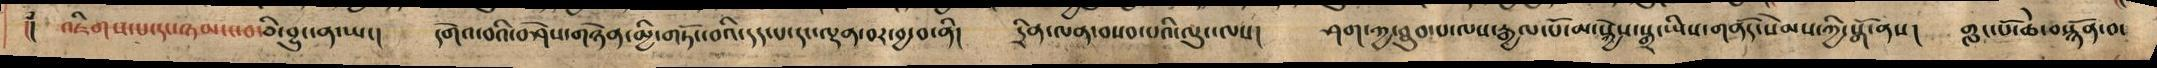།། འཇིགས་པ་དང་ཉམ་ང་བ་ཅི་བྱུང་ན་ཡང། དགེའ་བའི་བཤེས་གཉེན་མྱི་གཏོང་བའི་དད་པ་དང་ལྡན་བར་བྱ་བ་ནི། དྲིན་ལན་བསབ་པའི་ལུང་ལས། ཤག་ཀྱ་ཐུབ་པ་ལས་རྒྱལ་པོ་མ་སྐྱེས་སྒྲ་ཡིས་གནོད་སེམས་ཀྱི་སྒོ་ནས། གླང་པོ་ཆེ་བསྙོན་བ་
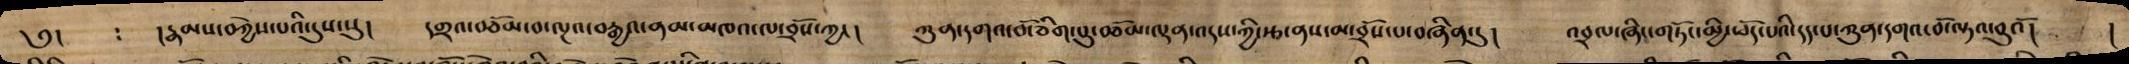༅། : །རྣམས་བཀྱེས་པའི་དུས་སུ། དགྲའ་བཅོམ་བ་ལྔ་བརྒྱའ་ནམ་མཁའ་ལ་བྲོས་ཀྱང། ཀུན་དགའ་བོ་ཅིག་པུ་བཅོམ་ལྡན་འདས་ཀྱི་རྩ་ནས་མ་བྲོས་པ་བཞིན་དུ། འབྲལ་ཞིང་གཏོང་མྱི་ཕོད་པའི་དད་པ་ཀུན་དགའ་བོ་ལྟའ་བུའོ། །
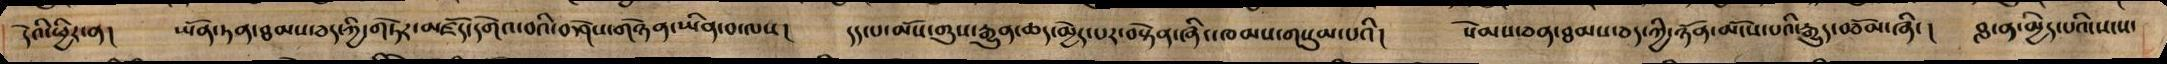དེའི་ཕྱིར་ན། ཡོན་ཏན་ཐམས་ཅད་ཀྱི་གཏེར་མཛོད་དགེའ་བའི་བཤེས་གཉེན་ཡིན་བ་ལས། དད་པ་མོས་གུས་རྒྱུན་ཆད་མྱེད་པར་བསྟེན་ཞིང་ཁམས་གསུམ་པའི། སེམས་ཅན་ཐམས་ཅད་ཀྱི་ཉོན་མོངས་པའི་རྒྱུད་བཅོམ་ཞིང། བླ་ན་མྱིད་པའི་སངས་
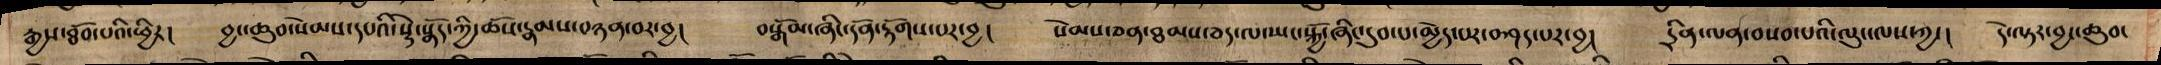རྒྱས་ཐོབ་པའི་ཕྱིར། བྱང་ཆུབ་སེམས་དཔའི་སྡེ་སྣོད་ཀྱི་ཆོས་རྣམས་བཉན་བར་བྱ། བསྒོམ་ཞིང་དོན་རྟོགས་པར་བྱ། སེམས་ཅན་ཐམས་ཅད་ལ་ཡང་སྐྱོ་ཞིང་དུབ་པ་མྱེད་པར་བཤད་པར་བྱ། དྲིན་ལན་བསབ་པའི་ལུང་ལས་ཀྱང། དེ་ལྟར་བྱང་ཆུབ་
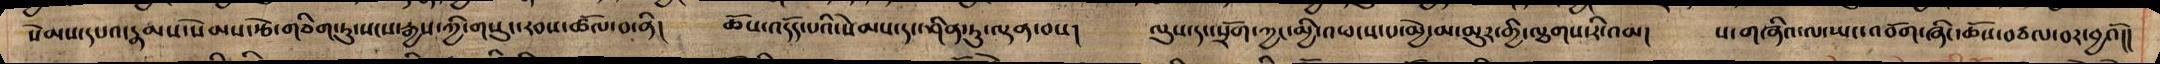སེམས་དཔའ་རྣམས་སེམས་རྩེ་གཅིག་ཏུ་སངས་རྒྱས་ཀྱི་གསུང་རབས་ཚོལ་བ་ནི། ཆོས་འདོད་པའི་སེམས་དང་ཤིན་ཏུ་ལྡན་བས། ལུས་དང་སྲོག་ཀྱང་མྱི་འཕངས་པ་མྱེ་མ་མུར་གྱི་ལྕགས་རི་འམ། ས་གཞིའ་ལ་ཡང་འབོག་ཞཱིང་ཆོས་བཙལ་བར་བྱའོ།།
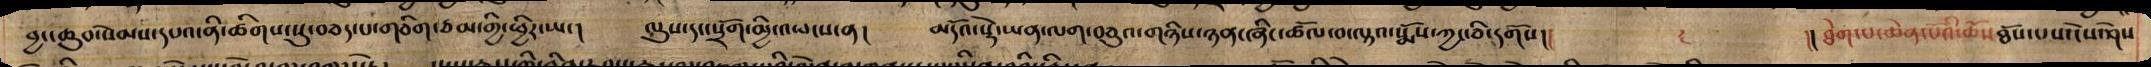བྱང་ཆུབ་སེམས་དཔའ་ནི་ཚིགས་སུ་བཅད་པ་གཅིག་ཙམ་གྱི་ཕྱིར་ཡང། ལུས་དང་སྲོག་མྱི་འཕངས་ན། མདོའ་སྡེ་ཡན་ལག་བཅུའ་གཉིས་ཉན་ཞིང་ཚོལ་བ་ལྟའ་སྨོས་ཀྱང་ཅི་དགོས།། །། ཐེག་པ་ཆེན་པོའི་ཆོས་ཐོས་པས་ངོས་ཤེས
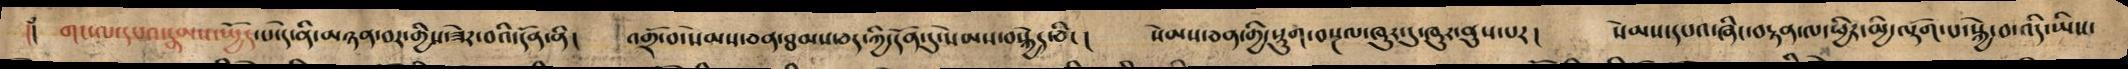།། གང་ལ་དཔའ་རྣམས་སྤྱོད་པ་དེ་ནི་མཉན་བར་གྱིས་ཟེར་བའི་དོན་ནི། འགྲོ་བ་སེམས་ཅན་ཐམས་ཅད་ཀྱི་དོན་དུ་སེམས་བསྐྱེད་ཅིང། སེམས་ཅན་གྱི་སྡུག་བསྔལ་ཞུར་དུ་ཞུར་ནུས་པར། སེམས་དཔའ་ཞིང་བརྟན་ལ་ཕྱིར་མྱི་ལྡོག་པ་སྐྱེ་བ་འདི་ཡིས་
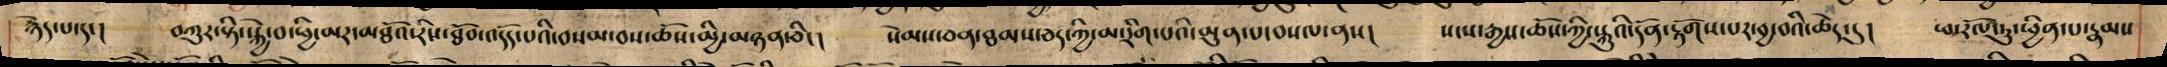རྙེད་པ་དང། བཀུར་སྟི་སྐྱེ་བ་ཕྱི་མར་མཐོའ་རིས་ཐོབ་འདོད་པའི་བསམ་བས་ཆོས་མྱི་མཉན་ཅིང། སེམས་ཅན་ཐམས་ཅད་ཀྱི་མ་རིག་པའི་མུན་པ་བསལ་ནས། སངས་རྒྱས་ཆོས་ཀྱི་སྐུའི་དོན་རྟོགས་པར་བྱ་བའི་ཆེད་དུ། ཕ་རོལ་ཏུ་ཕྱིན་པ་རྣམས
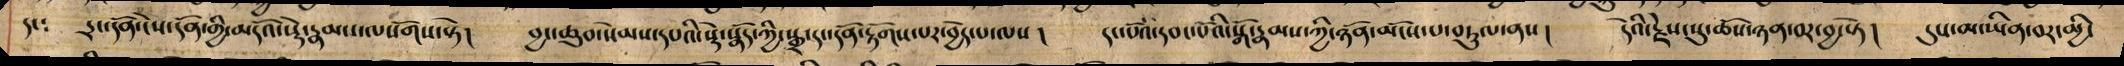དང་ དྲང་དོན་ངེས་དོན་གྱི་མདོའ་སྡེ་རྣམས་ལསོགས་སྟེ། བྱང་ཆུབ་སེམས་དཔའི་སྡེ་སྣོད་ཀྱི་སྒྲ་དོན་རྟོགས་པར་བྱེད་པ་ལས། དང་པོའ་དབང་པོའི་སྒོ་རྣམས་ཀྱི་ཉོན་མོངས་པ་བཏུལ་ནས། དེའི་རྗེས་སུ་ཆོས་ཉན་བར་བྱ་སྟེ། དུས་མ་ཡིན་བར་མྱི་
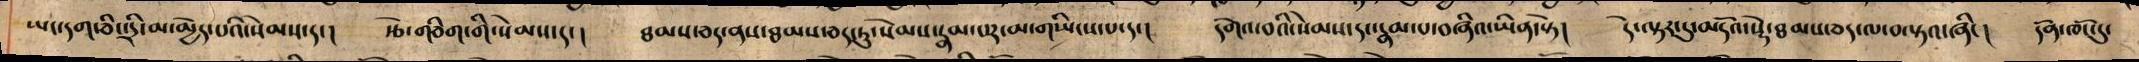ཡང་དག་ཅིང་དྲི་མ་མྱེད་པའི་སེམས་དང། རྩེ་གཅིག་གི་སེམས་དང། ཐམས་ཅད་ནས་ཐམས་ཅད་ཏུ་སེམས་རྣམ་པར་མ་གཡིངས་པ་དང། དགེའ་བའི་སེམས་དང་རྣམ་པ་བཞིའ་ཡིན་སྟེ། དེ་ལྟར་དུ་མདོའ་སྡེ་ཐམས་ཅད་ལ་བལྟའ་ཞིང། དོན་ཁོང་དུ་
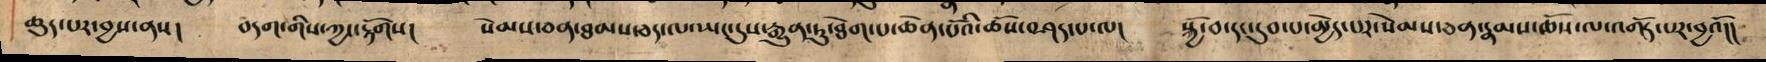ཆུད་པར་བྱས་ནས། བདག་གིས་ཀྱང་རྟོགས། སེམས་ཅན་ཐམས་ཅད་ལ་ཡང་དུས་རྒྱུན་ཏུ་ཐེག་པ་ཆེན་པོའི་ཆོས་བཤད་པ་ལ། སྐྱོ་བ་དང་དུབ་པ་མྱེད་པར་སེམས་ཅན་རྣམས་ཆོས་ལ་འགོད་པར་བྱའོ།།
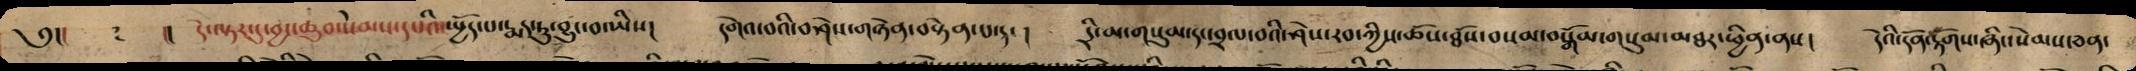༅།། །། དེ་ལྟར་དུ་བྱང་ཆུབ་སེམས་དཔའི་སྤྱོད་པ་རྨད་ཏུ་བྱུང་བ་ཡིས། དགེའ་བའི་བཤེས་གཉེན་བསྟེན་པ་དང ། དྲི་མ་གསུམ་དང་བྲལ་བའི་ཤེས་རབ་ཀྱིས་ཆོས་ཐོས་བསམ་བསྒོམ་གསུམ་མཐར་ཕྱིན་ནས། དེའི་དོན་རྟོགས་ཞིང་སེམས་ཅན་
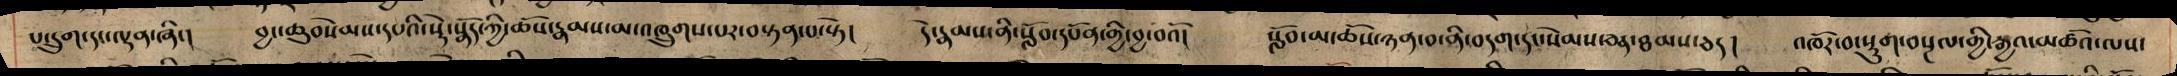པ་དྲུག་དང་ལྡན་ཞིང། བྱང་ཆུབ་སེམས་དཔའི་སྡེ་སྣོད་ཀྱི་ཆོས་རྣམས་མ་འཁྲུགས་པར་བསྟན་པ་སྟེ། དེ་རྣམས་ནི་སློབ་དཔོན་གྱི་བྱ་བའོ། སློབ་མ་ཆོས་ཉན་བ་ནི་བདག་དང་སེམས་ཅན་ཐམས་ཅད། འཁཽར་བ་སྡུག་བསྔལ་གྱི་རྒྱའ་མཚོའ་ལས་
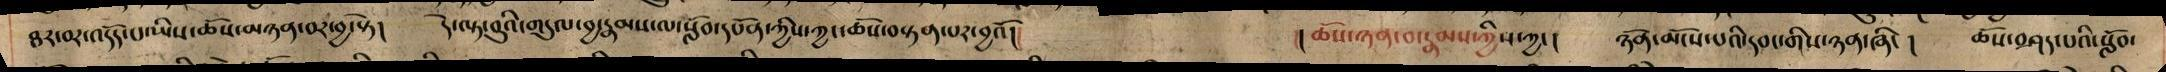ཐར་བར་འདོད་པ་ཡིས་ཆོས་མཉན་བར་བྱ་སྟེ། དེ་ལྟ་བུའི་གདུལ་བྱ་རྣམས་ལ་སློབ་དཔོན་ཀྱིས་ཀྱང་ཆོས་བསྟན་པར་བྱའོ།། །།ཆོས་ཉན་བ་རྣམས་ཀྱིས་ཀྱང། ཉོན་མོངས་པའི་དབང་གིས་ཉན་ཞིང ། ཆོས་བཤད་པའི་སློབ་
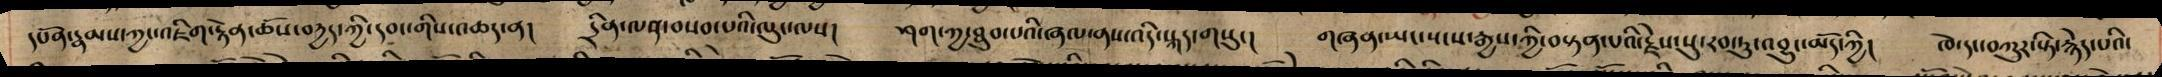དཔོན་རྣམས་ཀྱང་འཇིག་རྟེན་ཆོས་བརྱད་ཀྱི་དབང་གིས་འཆད་ན། དྲིན་ལན་བསབ་པའི་ལུང་ལས། ཤག་ཀྱ་ཐུབ་པའི་ཞལ་ནས་འདི་སྐད་གསུང། གཞན་ཡང་སངས་རྒྱས་ཀྱི་བསྟན་པའི་རྗེས་སུ་རབ་ཏུ་འབྱུང་མོད་ཀྱི། ཁེ་དང་བཀུར་སྟི་རྙེད་པའི་
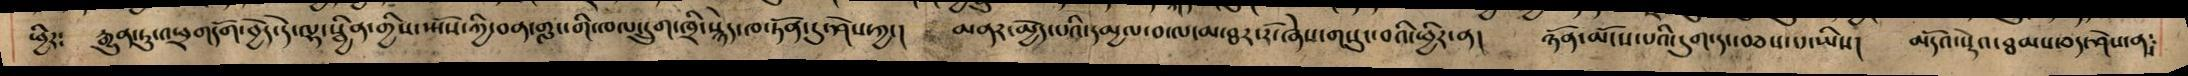ཕྱིར༴ རྒྱུན་ཏུ་འཕྲགདོག་བྱེད་དེ་ལྷ་སྦྱིན་གྱིས་ཡོས་ཀྱི་བན་གླང་གི་ཁལ་དྲུག་ཁྲི་སྙེད་ཁ ཏོན་དུ་ཤེས་ཀྱང། མནར་མྱེད་པའི་དམྱལ་བ་ལ་མ་ཐར་རོ་ཞེས་གསུང་བའི་ཕྱིར་ན། ཉོན་མོངས་པའི་དུག་དང་བཅས་པ་ཡིས། མདོའ་སྡེའ་ཐམས་ཅད་ཤེས་ན༴
